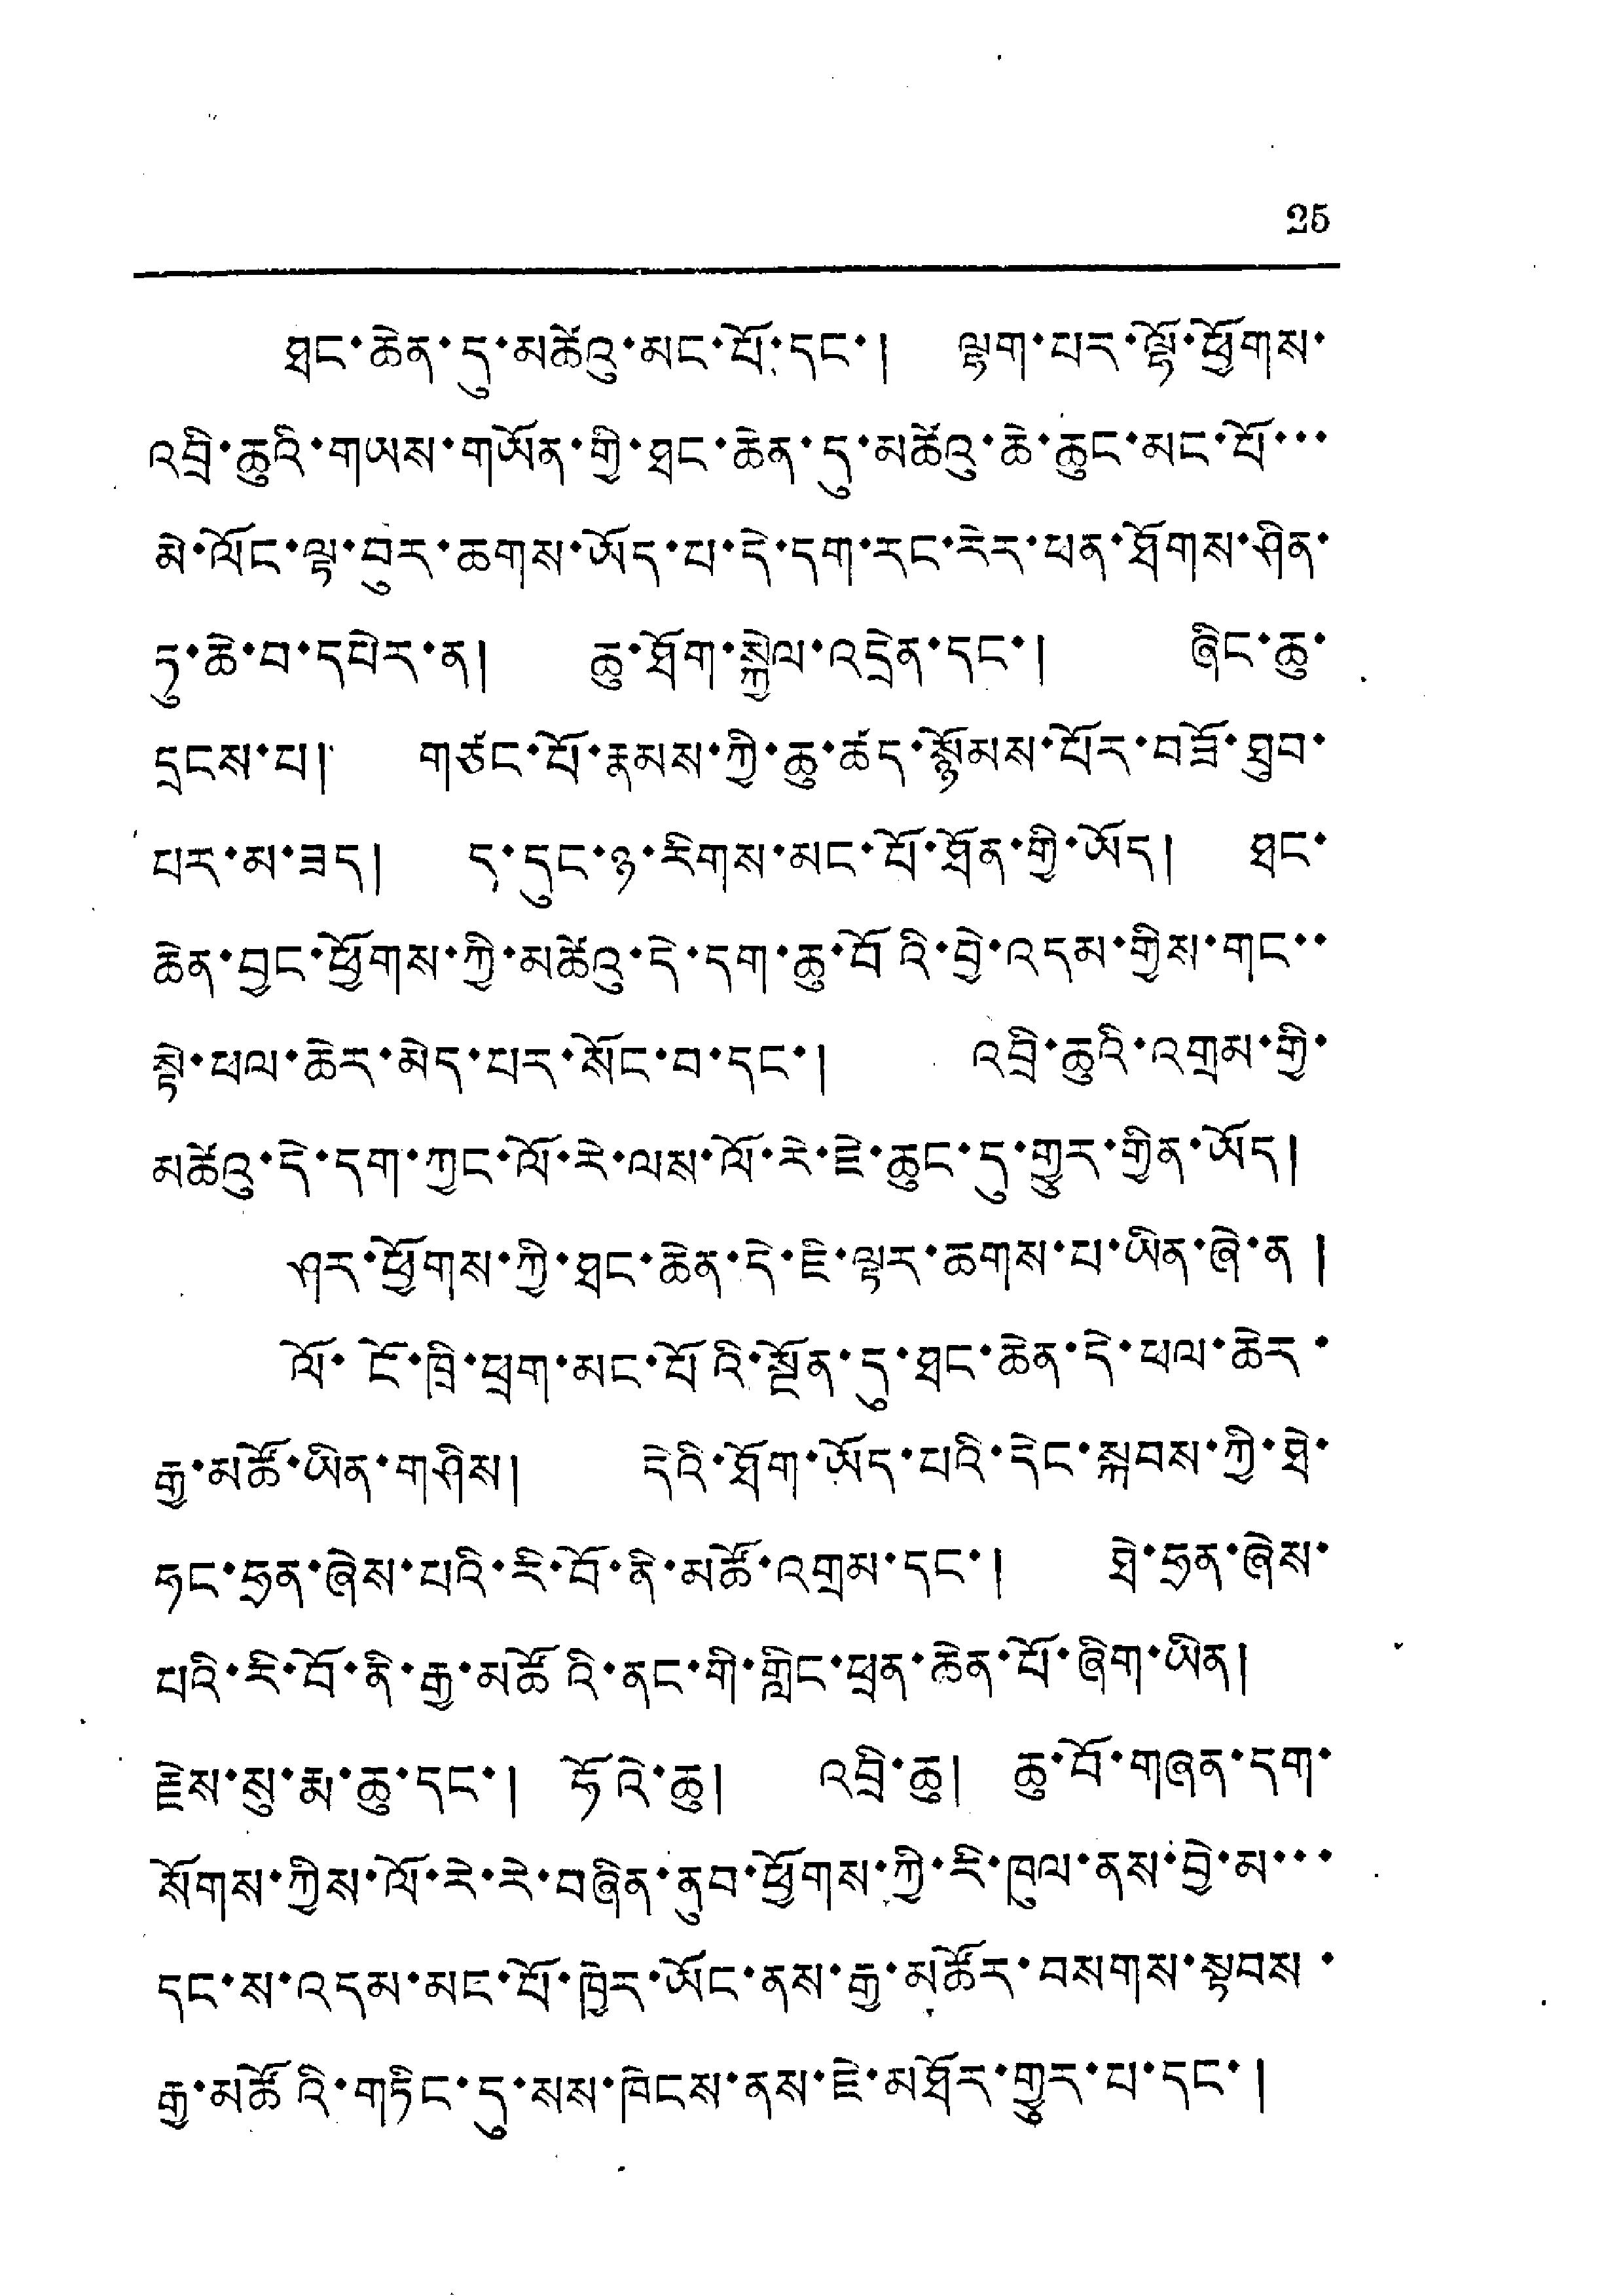25
ཐང་ཆེན་དུ་མཚེའུ་མང་པོ་དང་། ལྷག་པར་ལྷོ་ཕྱོགས་
འབྲི་ཆུའི་གཡས་གཡོན་གྱི་ཐང་ཆེན་དུ་མཚེའུ་ཆེ་ཆུང་མང་པོ་་་
མེ་ལོང་ལྟ་བུར་ཆགས་ཡོད་པ་དེ་དག་རང་རེར་ཕན་ཐོགས་ཤིན་
ཏུ་ཆེ་བ་དཔེར་ན། ཆུ་ཐོག་སྐྱེལ་འདྲེན་དང་། ཞིང་ཆུ་
དྲངས་པ། གཙང་པོ་རྣམས་ཀྱི་ཆུ་ཚད་སྙོམས་པོར་བཟོ་ཐུབ་
པར་མ་ཟད། ད་དུང་ཉ་རིགས་མང་པོ་ཐོན་གྱི་ཡོད། ཐང་
ཆེན་བྱང་ཕྱོགས་ཀྱི་མཚེའུ་དེ་དག་ཆུ་བོའི་བྱེ་འདམ་གྱིས་གང་་
སྟེ་ཕལ་ཆེར་མེད་པར་སོང་བ་དང་། འབྲི་ཆུའི་འགྲམ་གྱི་
མཚེའུ་དེ་དག་ཀྱང་ལོ་རེ་ལས་ལོ་རེ་ཇེ་ཆུང་དུ་གྱུར་གྱིན་ཡོད།
ཤར་ཕྱོགས་ཀྱི་ཐང་ཆེན་དེ་ཇི་ལྟར་ཆགས་པ་ཡིན་ཞེ་ན།
ལོ་ངོ་ཁྲི་ཕྲག་མང་པོའི་སྔོན་དུ་ཐང་ཆེན་དེ་ཕལ་ཆེར་
རྒྱ་མཚོ་ཡིན་གཤིས། དེའི་ཐོག་ཡོད་པའི་དེང་སྐབས་ཀྱི་ཐེ་
ཧང་ཧྲན་ཞེས་པའི་རི་བོ་ནི་མཚོ་འགྲམ་དང་། ཐེ་ཧྲན་ཞེས་
པའི་རི་བོ་ནི་རྒྱ་མཚོའི་ནང་གི་གླིང་ཕྲན་ཆེན་པོ་ཞིག་ཡིན།
རྗེས་སུ་རྨ་ཆུ་དང་། ཧོའེ་ཆུ། འབྲི་ཆུ། ཆུ་བོ་གཞན་དག་
སོགས་ཀྱིས་ལོ་རེ་རེ་བཞིན་ནུབ་ཕྱོགས་ཀྱི་རི་ཁུལ་ནས་བྱེ་མ་་་་
དང་ས་འདམ་མང་པོ་ཁྱེར་ཡོང་ནས་རྒྱ་མཚོར་བསགས་སྟབས་
རྒྱ་མཚོའི་གཏིང་དུ་སས་ཁེངས་ནས་ཇེ་མཐོར་གྱུར་པ་དང་།
